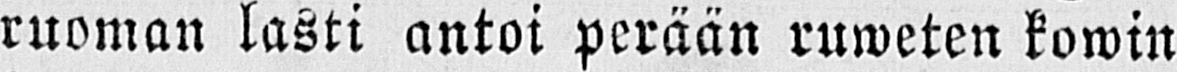ruoman lasti antoi perään ruweten kowin
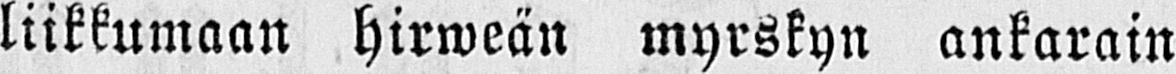liikkumaan hirweän myrskyn ankarain
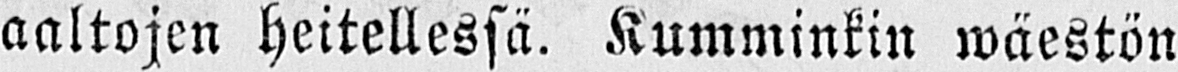aaltojen heitellessä. Kumminkin wäestön
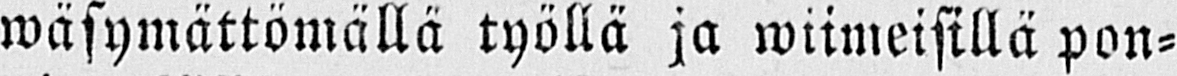wäsymättömällä työllä ja wiimeisillä pon-
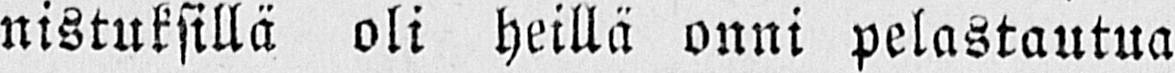nistuksilla oli heillä onni pelastautua
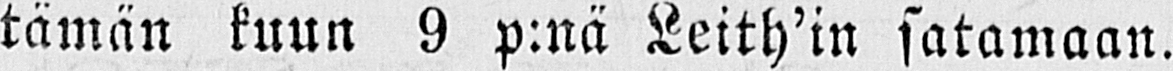tämän kuun 9 p:nä Leith'in satamaan.
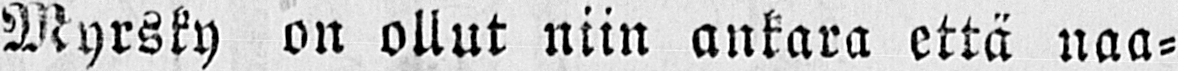Myrsky on ollut niin ankara että naa-
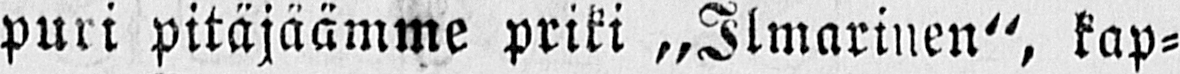puri pitäjäämme priki „Ilmarinen", kap-
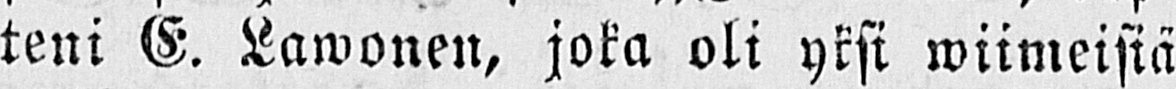teni E. Lawonen, joka oli yksi wiimeisiä
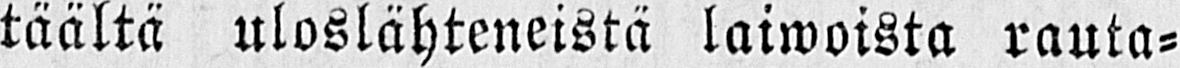täältä uloslähteneistä laiwoista rauta-
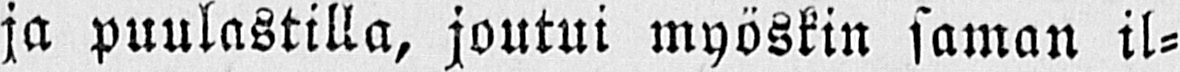ja puulastilla, joutui myöskin saman il-
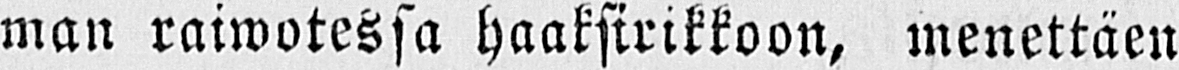man raiwotessa haaksirikkoon, menettäen
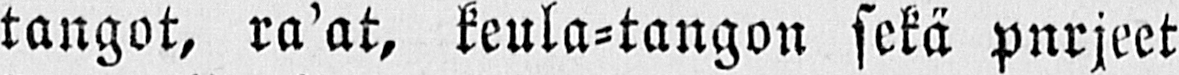tangot, ra'at, keula-tangon sekä pnrjeet
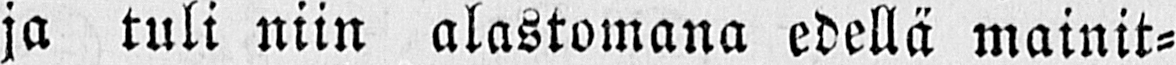ja tuli niin alastomana edellä mainit-
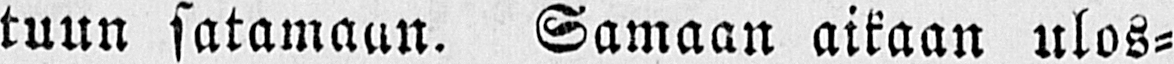tuun satamaan. Samaan aikaan ulos-
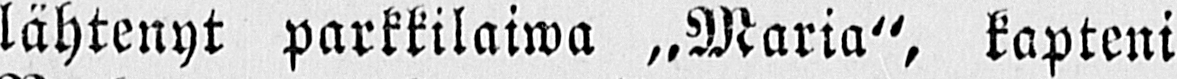lähtenyt parkkilaiwa „Maria", kapteni
